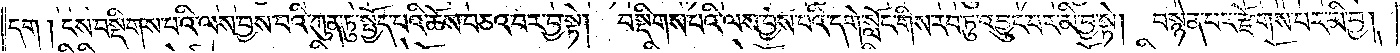དག །ངས་བསྡིགས་པའི་ལས་བྱས་པའི་ཀུན་ཏུ་སྤྱོད་པའི་ཆོས་བཅའ་བར་བྱ་སྟེ། བསྡིགས་པའི་ལས་བྱས་པའི་དགེ་སློང་གིས་རབ་ཏུ་འབྱུང་བར་མི་བྱ་སྟེ། བསྙེན་པར་རྫོགས་པར་མི་བྱ།
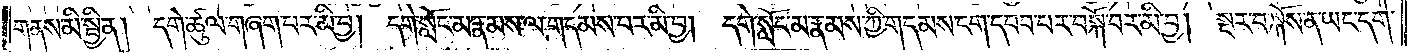གནས་མི་སྦྱིན། དགེ་ཚུལ་གཞག་པར་མི་བྱ། དགེ་སློང་མ་རྣམས་ལ་གདམས་པར་མི་བྱ། དགེ་སློང་མ་རྣམས་ཀྱི་གདམས་ངག་དབབ་པར་བསྐོ་བར་མི་བྱ། སྔར་བསྐོས་ན་ཡང་དགེ་
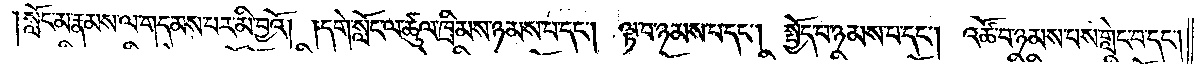སློང་མ་རྣམས་ལ་གདམས་པར་མི་བྱའོ། །དགེ་སློང་ལ་ཚུལ་ཁྲིམས་ཉམས་པ་དང༌། ལྟ་བ་ཉམས་པ་དང༌། སྤྱོད་པ་ཉམས་པ་དང༌། འཚོ་བ་ཉམས་པས་གླེང་བ་དང༌།
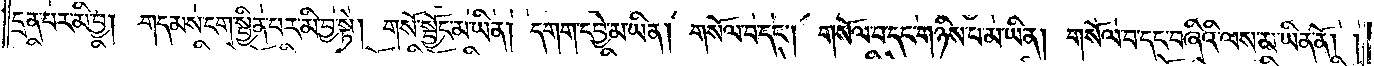དྲན་པར་མི་བྱ། གདམས་ངག་སྦྱིན་པར་མི་བྱ་སྟེ། གསོ་སྦྱོང་མ་ཡིན། དགག་དབྱེ་མ་ཡིན། གསོལ་བ་དང༌། གསོལ་བ་དང་གཉིས་པ་མ་ཡིན། གསོལ་བ་དང་བཞིའི་ལས་མ་ཡིན་ནོ། །
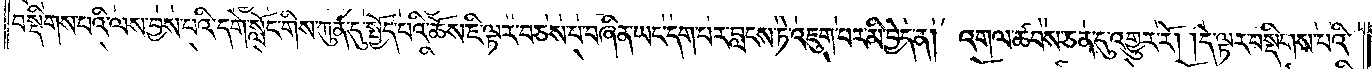བསྡིགས་པའི་ལས་བྱས་པའི་དགེ་སློང་གིས་ཀུན་དུ་སྤྱོད་པའི་ཆོས་ཇི་ལྟར་བཅས་པ་བཞིན་ཡང་དག་པར་བླངས་ཏེ་འཇུག་པར་མི་བྱེད་ན། འགལ་ཚབས་ཅན་དུ་འགྱུར་རོ། །དེ་ལྟར་བསྡིགས་པའི་
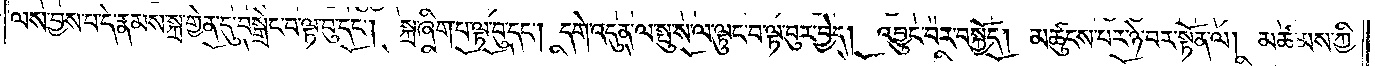ལས་བྱས་པ་དེ་རྣམས་སྐྲ་གྱེན་དུ་བསྒྲེང་བ་ལྟ་བུ་དང༌། སྐྲ་ཞིག་པ་ལྟ་བུ་དང༌། དགེ་འདུན་ལ་སྤུས་ལ་ལྟུང་བ་ལྟ་བུར་བྱེད། འབྱུང་བར་བསྐྱོད། མཚུངས་པར་ཉེ་བར་སྟོན་ལ། མཚམས་ཀྱི་
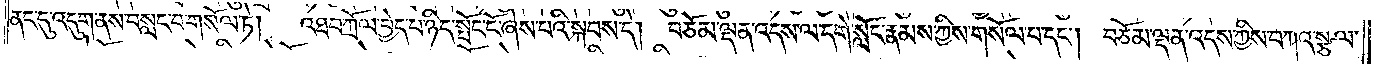ནང་དུ་འདུག་ནས་བསླང་བ་གསོལ་ཏེ། འཐབ་ཀྲོལ་བྱེད་པ་ཉིད་སྤོང་ངོ་ཞེས་པའི་སྐབས་དེ། བཅོམ་ལྡན་འདས་ལ་དགེ་སློང་རྣམས་ཀྱིས་གསོལ་བ་དང༌། བཅོམ་ལྡན་འདས་ཀྱིས་བཀའ་སྩལ་
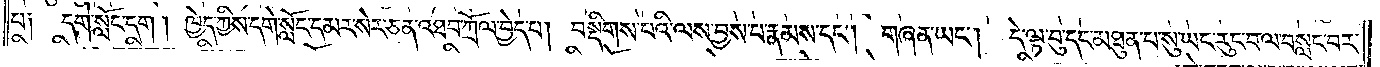པ༑ དགེ་སློང་དག། ཁྱེད་ཀྱིས་དགེ་སློང་དམར་སེར་ཅན་འཐབ་ཀྲོལ་བྱེད་པ། བསྡིགས་པའི་ལས་བྱས་པ་རྣམས་དང༌། གཞན་ཡང༌། དེ་ལྟ་བུ་དང་མཐུན་པ་སུ་ཡང་རུང་བ་ལ་བསླང་བར་
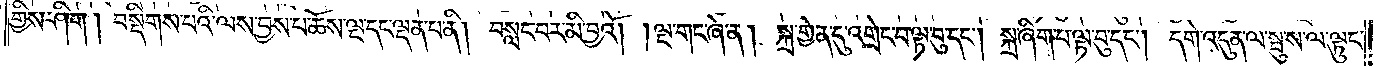གྱིས་ཤིག། བསྡིགས་པའི་ལས་བྱས་པ་ཆོས་ལྔ་དང་ལྡན་པ་ནི། བསླང་བར་མི་བྱའོ། །ལྔ་གང་ཞེ་ན། སྐྲ་གྱེན་དུ་འགྲེང་བ་ལྟ་བུ་དང༌། སྐྲ་ཞིག་བལྟ་བུ་དང༌། དགེ་འདུན་ལ་སྤུ་ས་ལ་ལྟུང་
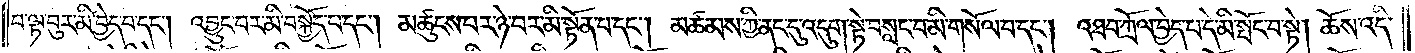བ་ལྟ་བུར་བྱེད་པ་དང༌། འབྱུང་བར་མི་བསྐྱོད་པ་དང༌། མཚུངས་པར་ཉེ་བར་མི་སྟོན་པ་དང༌། མཚམས་ཀྱི་ནང་དུ་འདུག་སྟེ་བསླང་བ་མི་གསོལ་བ་དང༌། འཐབ་ཀྲོལ་བྱེད་པ་དེ་མི་སྤོང་བ་སྟེ། ཆོས་འདི་
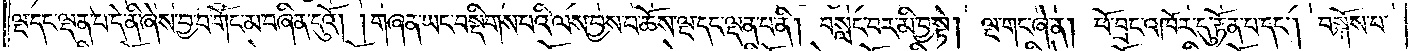ལྔ་དང་ལྡན་པ་དེ་ནི་ཞེས་བྱ་བ་གོང་མ་བཞིན་དུའོ། །གཞན་ཡང་བསྡིགས་པའི་ལས་བྱས་པ་ཆོས་ལྔ་དང་ལྡན་པ་ནི། བསླང་བར་མི་བྱ་སྟེ། ལྔ་གང་ཞེ་ན། ཕོ་བྲང་འཁོར་དུ་རྟོན་པ་དང༌། བསྐོས་པ་
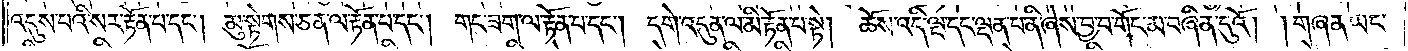འདུས་པའི་སར་རྟོན་པ་དང༌། མུ་སྟེགས་ཅན་ལ་རྟོན་པ་དང༌། གང་ཟག་ལ་རྟོན་པ་དང༌། དགེ་འདུན་ལ་མི་རྟོན་པ་སྟེ། ཆོས་འདི་ལྔ་དང་ལྡན་པ་ནི་ཞེས་བྱ་བ་གོང་མ་བཞིན་དུའོ། །གཞན་ཡང་
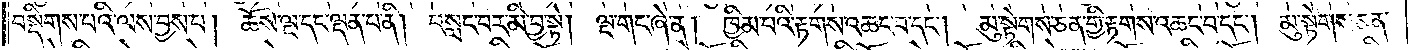བསྡིགས་པའི་ལས་བྱས་པ། ཆོས་ལྔ་དང་ལྡན་པ་ནི། བསླང་བར་མི་བྱ་སྟེ། ལྔ་གང་ཞེ་ན། ཁྱིམ་པའི་རྟགས་འཆང་བ་དང༌། མུ་སྟེགས་ཅན་གྱི་རྟགས་འཆང་བ་དང༌། མུ་སྟེགས་ཅན་
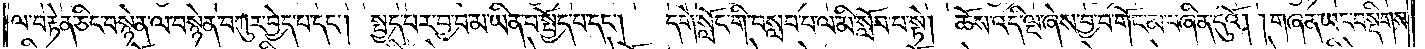ལ་བརྟེན་ཅིང་བསྙེན་ལ་བསྙེན་བཀུར་བྱེད་པ་དང༌། སྤྱད་པར་བྱ་བ་མ་ཡིན་པ་སྤྱོད་པ་དང༌།  དགེ་སློང་གི་བསླབ་པ་ལ་མི་སློབ་པ་སྟེ། ཆོས་འདི་ལྔ་ཞེས་བྱ་བ་གོང་མ་བཞིན་དུའོ། །གཞན་ཡང་བསྡིགས་
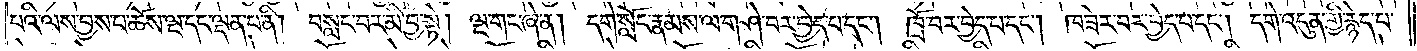པའི་ལས་བྱས་པ་ཆོས་ལྔ་དང་ལྡན་པ་ནི། བསླང་བར་མི་བྱ་སྟེ། ལྔ་གང་ཞེ་ན། དགེ་སློང་རྣམས་ལ་གཤེ་བར་བྱེད་པ་དང༌། ཁྲོ་བར་བྱེད་པ་དང༌། ཁ་ཟེར་བར་བྱེད་པ་དང༌། དགེ་འདུན་གྱི་རྙེད་པ་
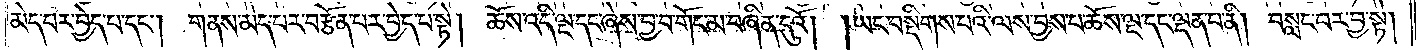མེད་པར་བྱེད་པ་དང༌། གནས་མེད་པར་བརྩོན་པར་བྱེད་པ་སྟེ། ཆོས་འདི་ལྔ་དང་ཞེས་བྱ་བ་གོང་མ་བཞིན་དུའོ། །ཡང་བསྡིགས་པའི་ལས་བྱས་པ་ཆོས་ལྔ་དང་ལྡན་པ་ནི། བསླང་བར་བྱ་སྟེ།
